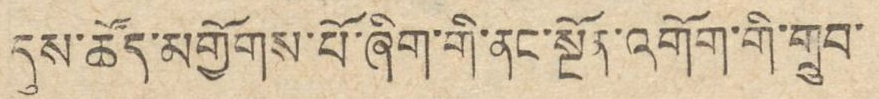དུས་ཚོད་མགྱོགས་པོ་ཞིག་གི་ནང་སྔོན་འགོག་གི་གྲུབ་
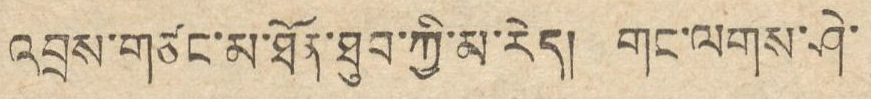འབྲས་གཙང་མ་ཐོན་ཐུབ་ཀྱི་མ་རེད། གང་ལགས་ཤེ་
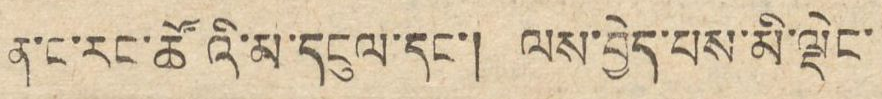ན་ང་རང་ཚོའི་མ་དངུལ་དང་། ལས་བྱེད་པས་མི་ལྡེང་
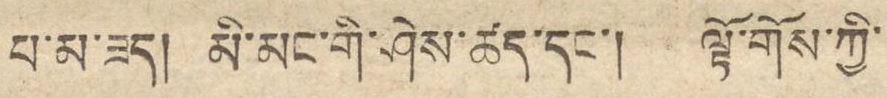པ་མ་ཟད། མི་མང་གི་ཤེས་ཚད་དང་། ལྟོ་གོས་ཀྱི་
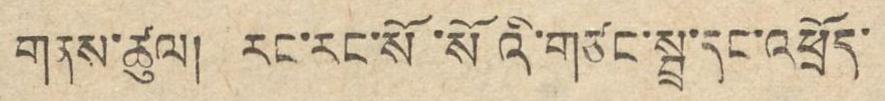གནས་ཚུལ། རང་རང་སོ་སོའི་གཙང་སྦྲ་དང་འཕྲོད་
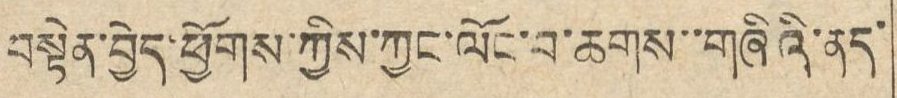བསྟེན་བྱེད་ཕྱོགས་ཀྱིས་ཀྱང་ལོང་བ་ཆགས་་གཞིའི་ནད་
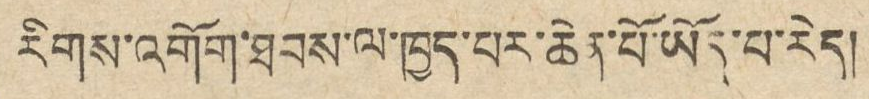རིགས་འགོག་ཐབས་ལ་ཁྱད་པར་ཆེན་པོ་ཡོད་པ་རེད།
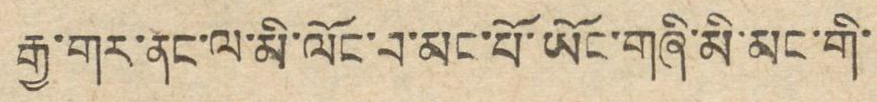རྒྱ་གར་ནང་ལ་མི་ལོང་བ་མང་པོ་ཡོང་གཞི་མི་མང་གི་
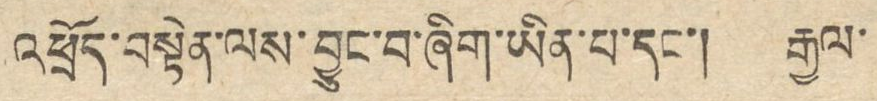འཕྲོད་བསྟེན་ལས་བྱུང་བ་ཞིག་ཡིན་པ་དང་། རྒྱལ་
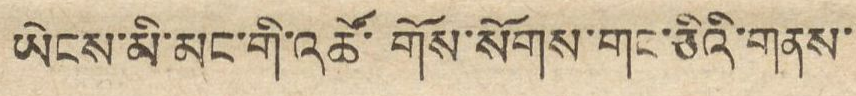ཡེངས་མི་མང་གི་འཚོ་གོས་སོགས་གང་ཅིའི་གནས་
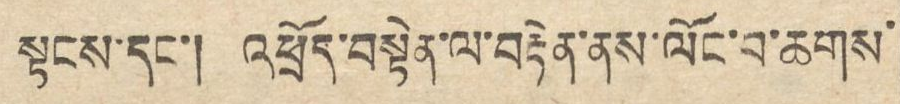སྟངས་དང་། འཕྲོད་བསྟེན་ལ་བརྟེན་ནས་ལོང་བ་ཆགས་
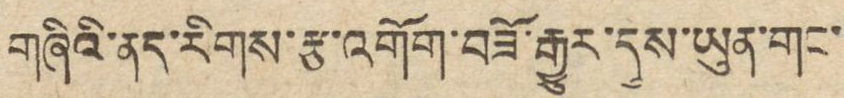གཞིའི་ནད་རིགས་རྩ་འགོག་བཟོ་རྒྱུར་དུས་ཡུན་གང་
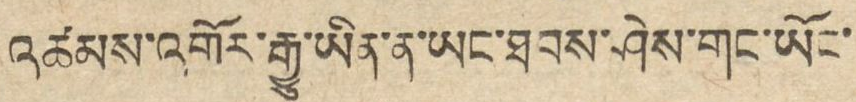འཚམས་འགོར་རྒྱུ་ཡིན་ན་ཡང་ཐབས་ཤེས་གང་ཡོང་
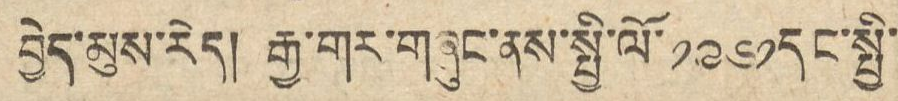བྱེད་མུས་རེད། རྒྱ་གར་གཞུང་ནས་སྤྱི་ལོ་ ༡༩༦༡ དང་སྤྱི་
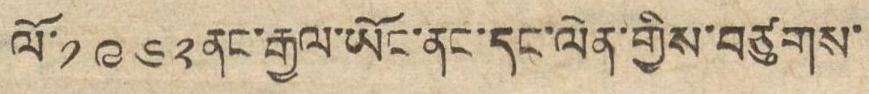ལོ་ ༡༩༦༢ ནང་རྒྱལ་ཡོང་ནང་དང་ལེན་གྱིས་བཙུགས་
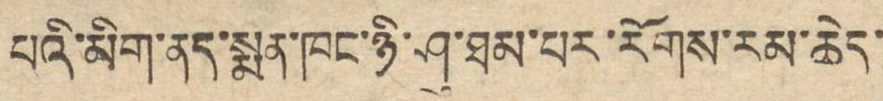པའི་མིག་ནད་སྨན་ཁང་ཉི་ཤུ་ཐམ་པར་རོགས་རམ་ཆེད་
